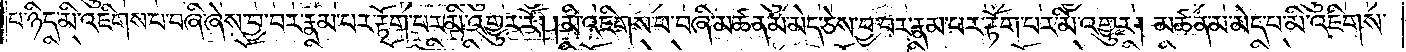པ་ཉིད་མི་འཇིགས་པ་བཞི་ཞེས་བྱ་བར་རྣམ་པར་རྟོག་པར་མི་འགྱུར་རོ། །མི་འཇིགས་པ་བཞི་མཚན་མ་མེད་ཅེས་བྱ་བར་རྣམ་པར་རྟོག་པར་མི་འགྱུར། མཚན་མ་མེད་པ་མི་འཇིགས་
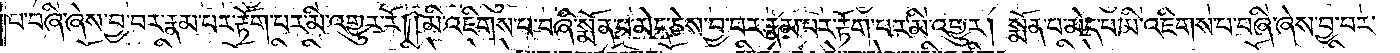པ་བཞི་ཞེས་བྱ་བར་རྣམ་པར་རྟོག་པར་མི་འགྱུར་རོ། །མི་འཇིགས་པ་བཞི་སྨོན་པ་མེད་ཅེས་བྱ་བར་རྣམ་པར་རྟོག་པར་མི་འགྱུར། སྨོན་པ་མེད་པ་མི་འཇིགས་པ་བཞི་ཞེས་བྱ་བར་
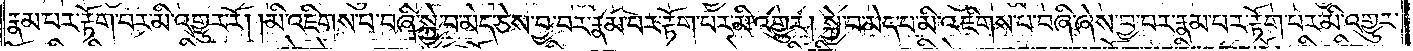རྣམ་པར་རྟོག་པར་མི་འགྱུར་རོ། །མི་འཇིགས་པ་བཞི་སྐྱེ་བ་མེད་ཅེས་བྱ་བར་རྣམ་པར་རྟོག་པར་མི་འགྱུར། སྐྱེ་བ་མེད་པ་མི་འཇིགས་པ་བཞི་ཞེས་བྱ་བར་རྣམ་པར་རྟོག་པར་མི་འགྱུར་
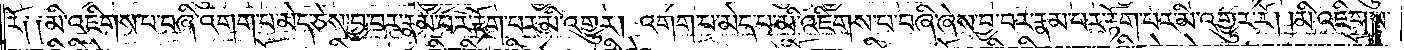རོ༏ ༏མི་འཇིགས་པ་བཞི་འགག་པ་མེད་ཅེས་བྱ་བར་རྣམ་པར་རྟོག་པར་མི་འགྱུར། འགག་པ་མེད་པ་མི་འཇིགས་པ་བཞི་ཞེས་བྱ་བར་རྣམ་པར་རྟོག་པར་མི་འགྱུར་རོ། །མི་འཇིགས་
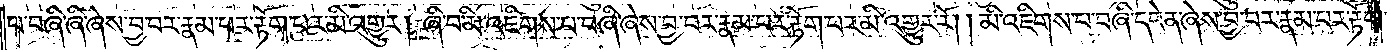པ་བཞི་ཞི་ཞེས་བྱ་བར་རྣམ་པར་རྟོག་པར་མི་འགྱུར། ཞི་བ་མི་འཇིགས་པ་བཞི་ཞེས་བྱ་བར་རྣམ་པར་རྟོག་པར་མི་འགྱུར་རོ། །མི་འཇིགས་པ་བཞི་དབེན་ཞེས་བྱ་བར་རྣམ་པར་རྟོག་
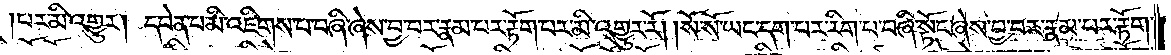པར་མི་འགྱུར། དབེན་པ་མི་འཇིགས་པ་བཞི་ཞེས་བྱ་བར་རྣམ་པར་རྟོག་པར་མི་འགྱུར་རོ། །སོ་སོ་ཡང་དག་པར་རིག་པ་བཞི་སྟོང་ཞེས་བྱ་བར་རྣམ་པར་རྟོག་
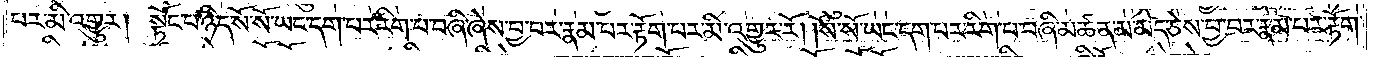པར་མི་འགྱུར། སྟོང་པ་ཉིད་སོ་སོ་ཡང་དག་པར་རིག་པ་བཞི་ཞེས་བྱ་བར་རྣམ་པར་རྟོག་པར་མི་འགྱུར་རོ། །སོ་སོ་ཡང་དག་པར་རིག་པ་བཞི་མཚན་མ་མེད་ཅེས་བྱ་བར་རྣམ་པར་རྟོག་
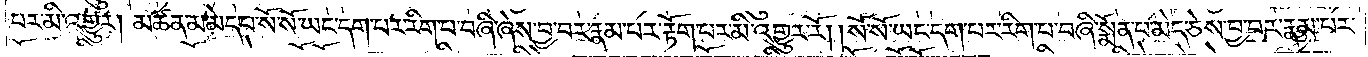པར་མི་འགྱུར། མཚན་མ་མེད་པ་སོ་སོ་ཡང་དག་པར་རིག་པ་བཞི་ཞེས་བྱ་བར་རྣམ་པར་རྟོག་པར་མི་འགྱུར་རོ། །སོ་སོ་ཡང་དག་པར་རིག་པ་བཞི་སྨོན་པ་མེད་ཅེས་བྱ་བར་རྣམ་པར་
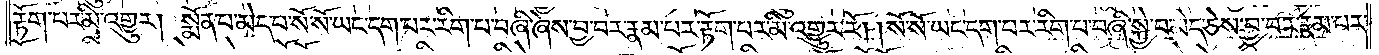རྟོག་པར་མི་འགྱུར། སྨོན་པ་མེད་པ་སོ་སོ་ཡང་དག་པར་རིག་པ་བཞི་ཞེས་བྱ་བར་རྣམ་པར་རྟོག་པར་མི་འགྱུར་རོ། །སོ་སོ་ཡང་དག་པར་རིག་པ་བཞི་སྐྱེ་བ་མེད་ཅེས་བྱ་བར་རྣམ་པར་
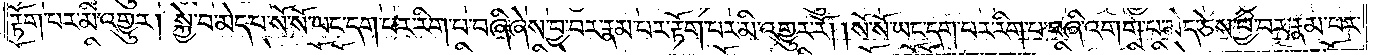རྟོག་པར་མི་འགྱུར། སྐྱེ་བ་མེད་པ་སོ་སོ་ཡང་དག་པར་རིག་པ་བཞི་ཞེས་བྱ་བར་རྣམ་པར་རྟོག་པར་མི་འགྱུར་རོ། །སོ་སོ་ཡང་དག་པར་རིག་པ་བཞི་འགག་པ་མེད་ཅེས་བྱ་བར་རྣམ་པར་
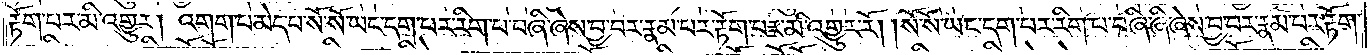རྟོག་པར་མི་འགྱུར། འགག་པ་མེད་པ་སོ་སོ་ཡང་དག་པར་རིག་པ་བཞི་ཞེས་བྱ་བར་རྣམ་པར་རྟོག་པར་མི་འགྱུར་རོ། །སོ་སོ་ཡང་དག་པར་རིག་པ་བཞི་ཞི་ཞེས་བྱ་བར་རྣམ་པར་རྟོག་
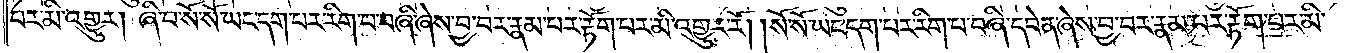པར་མི་འགྱུར། ཞི་བ་སོ་སོ་ཡང་དག་པར་རིག་པ་བཞི་ཞེས་བྱ་བར་རྣམ་པར་རྟོག་པར་མི་འགྱུར་རོ། །སོ་སོ་ཡང་དག་པར་རིག་པ་བཞི་དབེན་ཞེས་བྱ་བར་རྣམ་པར་རྟོག་པར་མི་
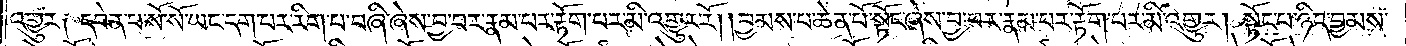འགྱུར༏ དབེན་པ་སོ་སོ་ཡང་དག་པར་རིག་པ་བཞི་ཞེས་བྱ་བར་རྣམ་པར་རྟོག་པར་མི་འགྱུར་རོ། །བྱམས་པ་ཆེན་པོ་སྟོང་ཞེས་བྱ་བར་རྣམ་པར་རྟོག་པར་མི་འགྱུར། སྟོང་པ་ཉིད་བྱམས་
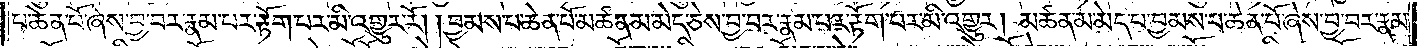པ་ཆེན་པོ་ཞེས་བྱ་བར་རྣམ་པར་རྟོག་པར་མི་འགྱུར་རོ། །བྱམས་པ་ཆེན་པོ་མཚན་མ་མེད་ཅེས་བྱ་བར་རྣམ་པར་རྟོག་པར་མི་འགྱུར། མཚན་མ་མེད་པ་བྱམས་པ་ཆེན་པོ་ཞེས་བྱ་བར་རྣམ་
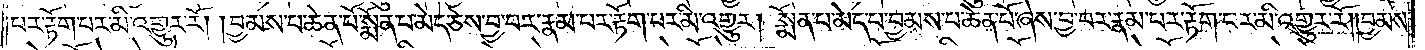པར་རྟོག་པར་མི་འགྱུར་རོ། །བྱམས་པ་ཆེན་པོ་སྨོན་པ་མེད་ཅེས་བྱ་བར་རྣམ་པར་རྟོག་པར་མི་འགྱུར། སྨོན་པ་མེད་པ་བྱམས་པ་ཆེན་པོ་ཞེས་བྱ་བར་རྣམ་པར་རྟོག་པར་མི་འགྱུར་རོ། །བྱམས་
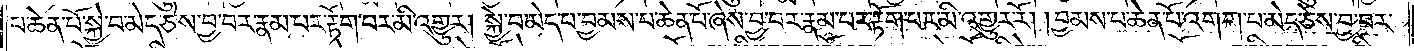པ་ཆེན་པོ་སྐྱེ་བ་མེད་ཅེས་བྱ་བར་རྣམ་པར་རྟོག་པར་མི་འགྱུར། སྐྱེ་བ་མེད་པ་བྱམས་པ་ཆེན་པོ་ཞེས་བྱ་བར་རྣམ་པར་རྟོག་པར་མི་འགྱུར་རོ། །བྱམས་པ་ཆེན་པོ་འགག་པ་མེད་ཅེས་བྱ་བར་
